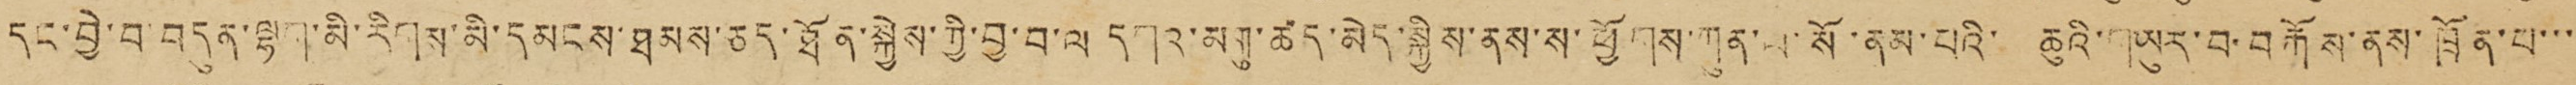དང་བྱེ་བ་བདུན་ལྷག་མི་རིགས་མི་དམངས་ཐམས་ཅད་ཐོན་སྐྱེས་ཀྱི་བྱ་བ་ལ དགའ་མགུ་ཚད་མེད་སྐྱིས་ནས་ས་ཕྱོགས་ཀུན་ལ་སོ་ནམ་པའི་ ཆུའི་གཡུར་བ་བརྐོས་ནས་ཁྲོན་པ་་་
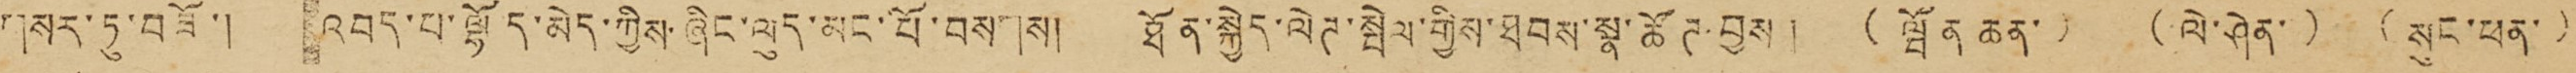གསར་ཏུ་བཟོ་། འབད་པ་ལྷོད་མེད་ཀྱིས་ཞིང་ལུད་མང་པོ་བསགས། ཐོན་སྐྱེད་ལེཊ་སྤེལ་གྱིས་ཐབས་སྣ་ཚོཊ་བྱས། ( ཝོན ཆན་ ) ( ལེ་ཤེན་ ) ( སུང་ཕན་ )
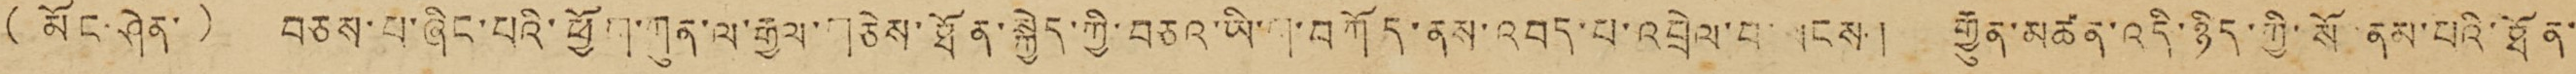( མོང་ཤེན་ ) བཅས་པ་ཞིང་པའི་ཕྱོག་ཀུན་ལ་རྒྱལ་གཅེས་ཐོན་སྐྱེད་ཀྱི་བཅའ་ཡི་ག་བཀོད་ནས་འབད་པ་འབྲེལ་བ་ལངས། རྒྱུན་མཚན་འདི་ཉིད་ཀྱི་སོ་ནམ་པའི་ཐོན་
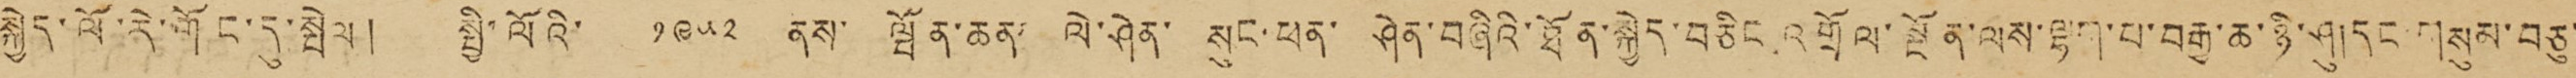སྐྱེད་ལོ་རེ་གོང་དུ་སྤེལ ། སྤྱི་ལོའི་ ༡༩༥༢ ནས་ ཝོན་ཆན་ ལེ་ཤེན་ སུང་ཕན་ ཤེན་བཞིའི་ཐོན་སྐྱེད་བཅིང འགྲོལ་སྔོན་ལས་ལྷག་པ་བརྒྱ་ཆ་ཉུ་ཤུ།དང་གསུམ་བཅུ་
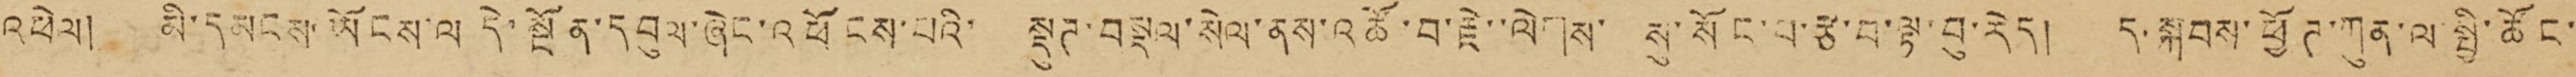འཕེལ། མི་དམངས་ཡོངས་ལ དེ་སྔོན་དབུལ་ཞེང་འཕྱོངས་པའི་ སྡུཊ་བསྔལ་སེལ་ནས་འཚོ་བ་རྗེ་་ལེགས་ སུ་སོང་བ་རྩ་བ་ལྟ་བུ་རེད། ད་སྐབས་ཕྱོཊ་ཀུན་ལ་སྤྱི་ཚོང་
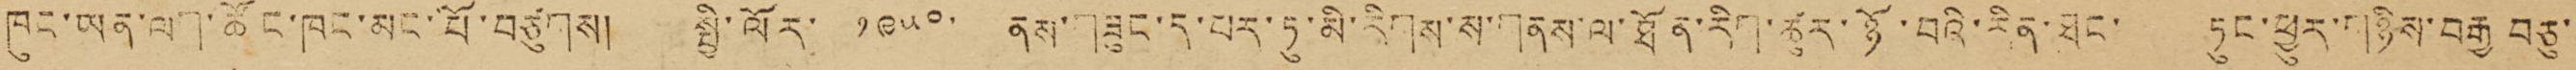ཁུང་ཡན་ལག་ཚོང་ཁང་མང་པོ་བཙུགས། སྤྱི་ལོར་ ༡༩༥༠་ ནས་གཟུང་ད་པར་ཏུ་མི་རིགས་ས་གནས་ལ་ཐོན་རིག་ཚུར་ཉོ་བའི་རིན་ཐང་ ཏུང་ཕྱུར་གཉིས་བརྒྱ བཅུ་
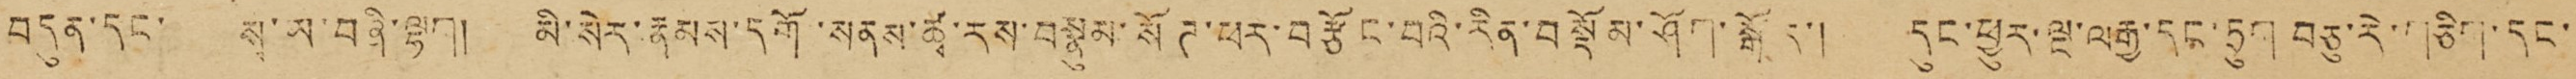བདུན་དང་ སྭ་ཡ་བཞི་ལྷག། མི་སེར་རྣམས་དགོ་སནས་ཚྭ་རས་བསྣུམ་སོཊ་ཕར་བརྩོང་བའི་རིན་བསྡོམ་ཤོག་སྒོར་། དུང་ཕྱུར་ལྔ་ལརྒྱ་དང་ཏྲུག བཅུ་རེ་གཅིག་དང་
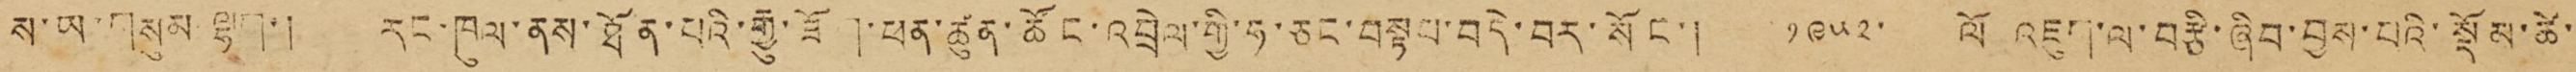ས་ཡ་གསུམ ལྷག་། རང་ཁུལ་ནས་ཐོན་པའི་རྒྱུ་ཟོག་ཕན་ཚུན་ཚོང་འབྲེལ་གྱི་ཧ་ཅང་བསྟབ་བདེ་བར་སོང་། ༡༩༥༢་ ལོ འཇུག་ལ་བརྩི་ཞིབ་བྱས་པའི་སྡོམ་ཚེ་
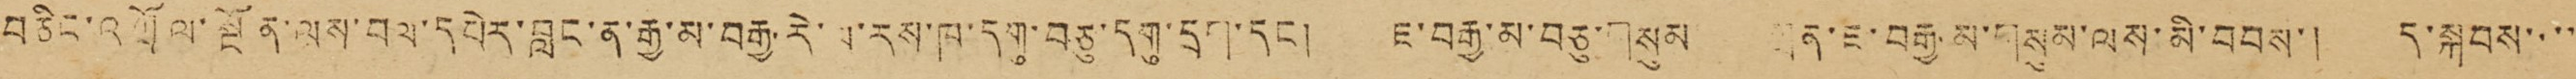བཅིང་འཀྲོལ་སྔོན་ལས་བལ་དཔེར་བླང་ན་རྒྱ་མ་བརྒྱ་རེ་ལ་རས་ཁ་དགུ་བཅུ་དགུ་དྲག་དང་། ཇ་བརྒྱ་མ་བཅུ་གསུམ ཀྲན་ཇ་བརྒྱ་མ་གསུམ་ལས་མི་བབས་། ད་སྐབས་་་་
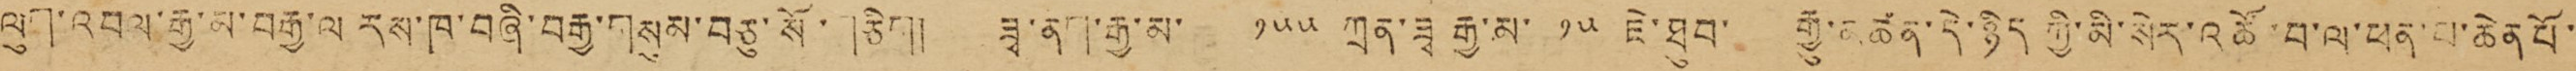ལུག་འབལ་རྒྱ་མ་བརྒྱ་ལ རས་ཁ་བཞི་བརྒྱ་གསུམ་བཅུ་སོ་གཅིག། ཟྭ་ནག་རྒྱ་མ་ ༡༥༥ ཀྲན་ཟྭ རྒྱ་མ་ ༡༥ ཇེ་ཐུབ་ རྒྱུ་མཚན་དེ་ཉིད ཀྱི་མི་སེར་འཚོ་བ་ལ་ཕན་པ་ཆེནཔོ་
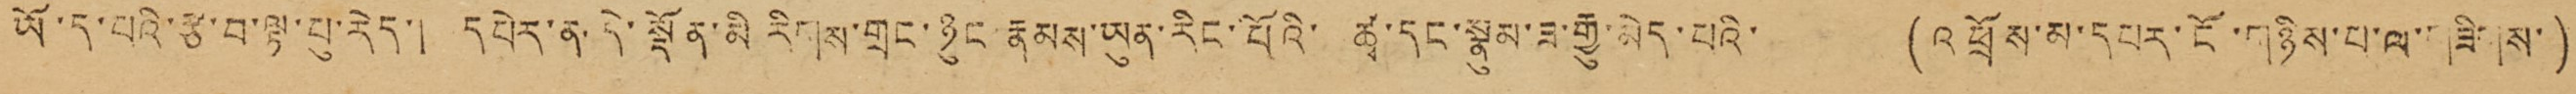ཡོ་ད་པའི་རྩ་བ་ལྟ་བུ་རེད་། དཔེར་ན་དེ་སྡོན་མི རིགས་གྲང་ཉུང རྣམས་ཡུན་རིང་པོའི་ ཚྭ་དང་སྣུམ་ཟ་རྒྱུ་མེད་པའི་ (འཕྲོས་མ་དཔར་ངོ་གཉིས་པ་ལ་གཟིགས་)
